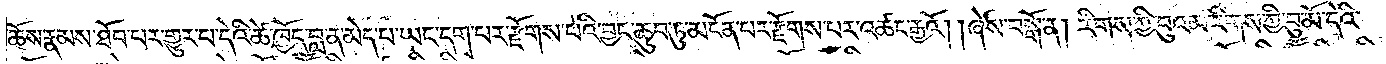ཆོས་རྣམས་ཐོབ་པར་གྱུར་པ་དེའི་ཚེ་ཁྱོད་བླ་ན་མེད་པ་ཡང་དག་པར་རྫོགས་པའི་བྱང་ཆུབ་ཏུ་མངོན་པར་རྫོགས་པར་འཚང་རྒྱའོ། །ཞེས་བསྒོ་ན། རིགས་ཀྱི་བུའམ་རིགས་ཀྱི་བུ་མོ་དེའི་
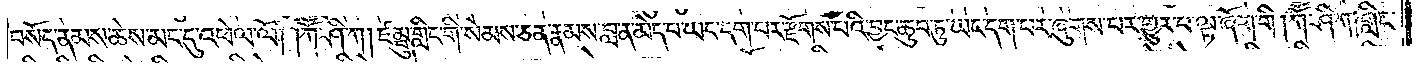བསོད་ནམས་ཆེས་མང་དུ་འཕེལ་ལོ། །ཀཽ་ཤི་ཀ། ཛམྦུ་གླིང་གི་སེམས་ཅན་རྣམས་བླ་ན་མེད་པ་ཡང་དག་པར་རྫོགས་པའི་བྱང་ཆུབ་ཏུ་ཡང་དག་པར་ཞུགས་པར་གྱུར་པ་ལྟ་ཞོག་གི །ཀཽ་ཤི་ཀ། གླིང་
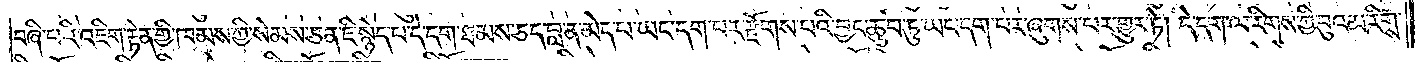བཞི་པའི་འཇིག་རྟེན་གྱི་ཁམས་ཀྱི་སེམས་ཅན་ཇི་སྙེད་པ་དེ་དག་ཐམས་ཅད་བླ་ན་མེད་པ་ཡང་དག་པར་རྫོགས་པའི་བྱང་ཆུབ་ཏུ་ཡང་དག་པར་ཞུགས་པར་གྱུར་ཏེ། དེ་དག་ལ་རིགས་ཀྱི་བུའམ་རིགས་
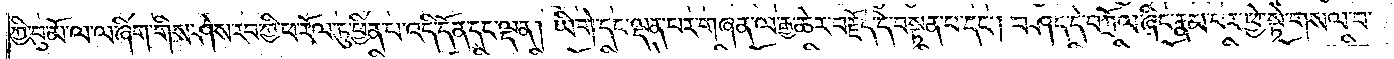ཀྱི་བུ་མོ་ལ་ལ་ཞིག་གིས་ཤེས་རབ་ཀྱི་ཕ་རོལ་ཏུ་ཕྱིན་པ་འདི་དོན་དང་ལྡན། ཡི་གེ་དང་ལྡན་པར་གཞན་ལ་རྒྱ་ཆེར་བརྗོད་དེ་བསྟན་པ་དང༌། བཤད་དེ་བཀྲོལ་ཞིང་རྣམ་པར་ཕྱེ་སྟེ་གསལ་བ་
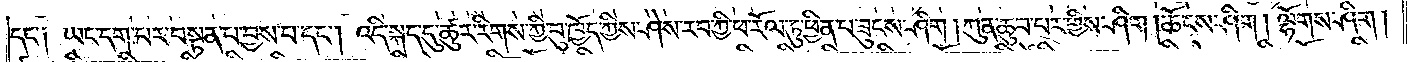དང་༑ ཡང་དག་པར་བསྟན་པ་བྱས་པ་དང༌། འདི་སྐད་དུ་ཚུར་རིགས་ཀྱི་བུ་ཁྱོད་ཀྱིས་ཤེས་རབ་ཀྱི་ཕ་རོལ་ཏུ་ཕྱིན་པ་ཟུངས་ཤིག །ཀུན་ཆུབ་པར་གྱིས་ཤིག །ཆོངས་ཤིག། ལྷོགས་ཤིག །
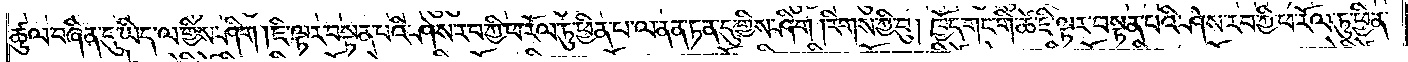ཚུལ་བཞིན་དུ་ཡིད་ལ་གྱིས་ཤིག །ཇི་ལྟར་བསྟན་པའི་ཤེས་རབ་ཀྱི་ཕ་རོལ་ཏུ་ཕྱིན་པ་ལ་ནན་ཏན་དུ་གྱིས་ཤིག །རིགས་ཀྱི་བུ། ཁྱོད་གང་གི་ཚེ་ཇི་ལྟར་བསྟན་པའི་ཤེས་རབ་ཀྱི་ཕ་རོལ་ཏུ་ཕྱིན་
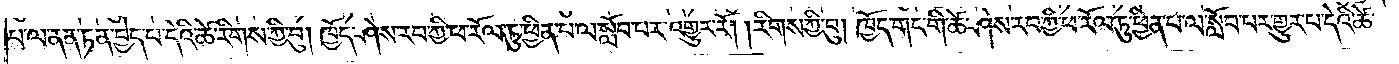པ་ལ་ནན་ཏན་བྱེད་པ་དེའི་ཚེ་རིགས་ཀྱི་བུ། ཁྱོད་ཤེས་རབ་ཀྱི་ཕ་རོལ་ཏུ་ཕྱིན་པ་ལ་སློབ་པར་འགྱུར་རོ། །རིགས་ཀྱི་བུ། ཁྱོད་གང་གི་ཚེ་ཤེས་རབ་ཀྱི་ཕ་རོལ་ཏུ་ཕྱིན་པ་ལ་སློབ་པར་གྱུར་པ་དེའི་ཚེ་
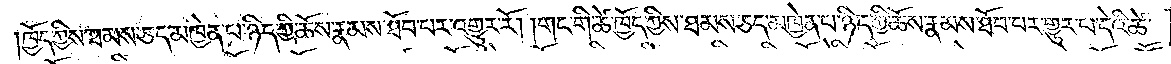ཁྱོད་ཀྱིས་ཐམས་ཅད་མཁྱེན་པ་ཉིད་ཀྱི་ཆོས་རྣམས་ཐོབ་པར་འགྱུར་རོ། །གང་གི་ཚེ་ཁྱོད་ཀྱིས་ཐམས་ཅད་མཁྱེན་པ་ཉིད་ཀྱི་ཆོས་རྣམས་ཐོབ་པར་གྱུར་པ་དེའི་ཚེ་
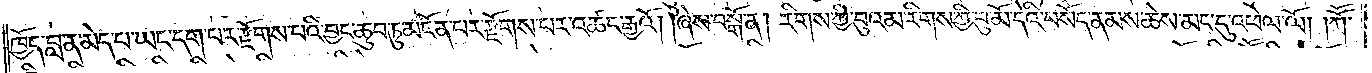ཁྱོད་བླ་ན་མེད་པ་ཡང་དག་པར་རྫོགས་པའི་བྱང་ཆུབ་ཏུ་མངོན་པར་རྫོགས་པར་འཚང་རྒྱའོ། །ཞེས་བསྒོ་ན། རིགས་ཀྱི་བུའམ་རིགས་ཀྱི་བུ་མོ་དེའི་བསོད་ནམས་ཆེས་མང་དུ་འཕེལ་ལོ། །ཀཽ་
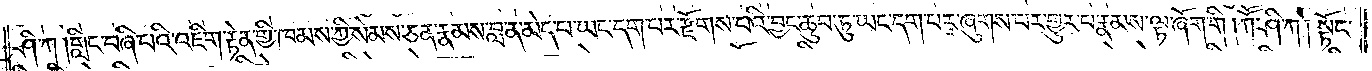ཤི་ཀ། གླིང་བཞི་པའི་འཇིག་རྟེན་གྱི་ཁམས་ཀྱི་སེམས་ཅན་རྣམས་བླ་ན་མེད་པ་ཡང་དག་པར་རྫོགས་པའི་བྱང་ཆུབ་ཏུ་ཡང་དག་པར་ཞུགས་པར་གྱུར་པ་རྣམས་ལྟ་ཞོག་གི །ཀཽ་ཤི་ཀ། སྟོང་
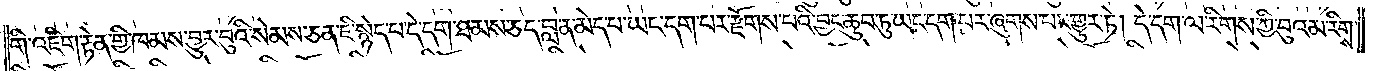གི་འཇིག་རྟེན་གྱི་ཁམས་བྱུར་བུའི་སེམས་ཅན་ཇི་སྙེད་པ་དེ་དག་ཐམས་ཅད་བླ་ན་མེད་པ་ཡང་དག་པར་རྫོགས་པའི་བྱང་ཆུབ་ཏུ་ཡང་དག་པར་ཞུགས་པར་གྱུར་ཏེ། དེ་དག་ལ་རིགས་ཀྱི་བུའམ་རིགས་
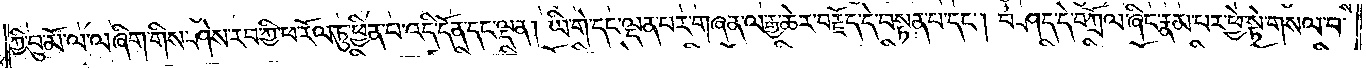ཀྱི་བུ་མོ་ལ་ལ་ཞིག་གིས་ཤེས་རབ་ཀྱི་ཕ་རོལ་ཏུ་ཕྱིན་པ་འདི་དོན་དང་ལྡན། ཡི་གེ་དང་ལྡན་པར་གཞན་ལ་རྒྱ་ཆེར་བརྗོད་དེ་བསྟན་པ་དང༌། བཤད་དེ་བཀྲོལ་ཞིང་རྣམ་པར་ཕྱེ་སྟེ་གསལ་བ་
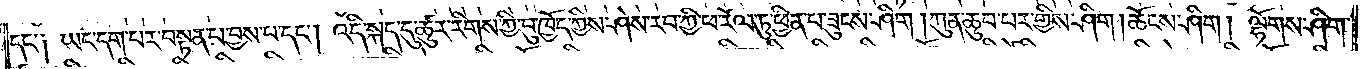དང་༑ ཡང་དག་པར་བསྟན་པ་བྱས་པ་དང༌། འདི་སྐད་དུ་ཚུར་རིགས་ཀྱི་བུ་ཁྱོད་ཀྱིས་ཤེས་རབ་ཀྱི་ཕ་རོལ་ཏུ་ཕྱིན་པ་ཟུངས་ཤིག །ཀུན་ཆུབ་པར་གྱིས་ཤིག །ཆོངས་ཤིག། ལྷོགས་ཤིག །
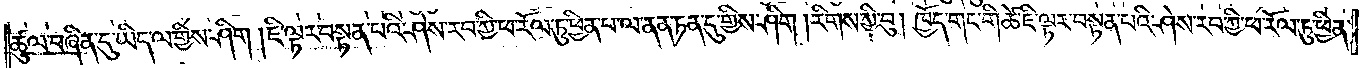ཚུལ་བཞིན་དུ་ཡིད་ལ་གྱིས་ཤིག །ཇི་ལྟར་བསྟན་པའི་ཤེས་རབ་ཀྱི་ཕ་རོལ་ཏུ་ཕྱིན་པ་ལ་ནན་ཏན་དུ་གྱིས་ཤིག །རིགས་ཀྱི་བུ། ཁྱོད་གང་གི་ཚེ་ཇི་ལྟར་བསྟན་པའི་ཤེས་རབ་ཀྱི་ཕ་རོལ་ཏུ་ཕྱིན་
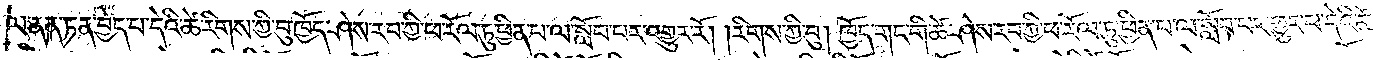པ་ལ་ནན་ཏན་བྱེད་པ་དེའི་ཚེ་རིགས་ཀྱི་བུ་ཁྱོད་ཤེས་རབ་ཀྱི་ཕ་རོལ་ཏུ་ཕྱིན་པ་ལ་སློབ་པར་འགྱུར་རོ། །རིགས་ཀྱི་བུ། ཁྱོད་གང་གི་ཚེ་ཤེས་རབ་ཀྱི་ཕ་རོལ་ཏུ་ཕྱིན་པ་ལ་སློབ་བར་གྱུར་པ་དེའི་ཚེ་
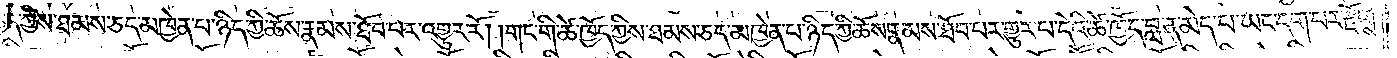ཁྱོད་ཀྱིས་ཐམས་ཅད་མཁྱེན་པ་ཉིད་ཀྱི་ཆོས་རྣམས་ཐོབ་པར་འགྱུར་རོ། །གང་གི་ཚེ་ཁྱོད་ཀྱིས་ཐམས་ཅད་མཁྱེན་པ་ཉིད་ཀྱི་ཆོས་རྣམས་ཐོབ་པར་གྱུར་པ་དེའི་ཚེ་ཁྱོད་བླ་ན་མེད་པ་ཡང་དག་པར་རྫོགས་
